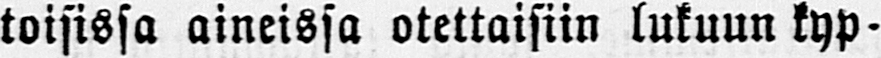toisissa aineissa otettaisiin lukuun kyp-
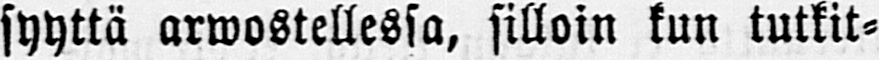syyttä arwostellessa, silloin kun tutkit-
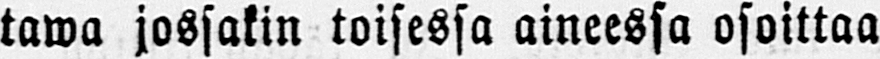tawa jossakin toisessa aineessa osoittaa
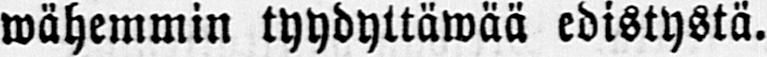wähemmin tyydyttäwää edistystä.
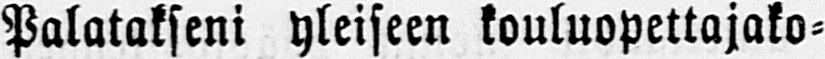Palatakseni yleiseen kouluopettajako-
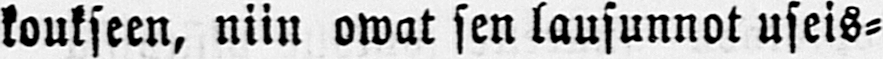koukseen, niin owat sen lausunnot useis-
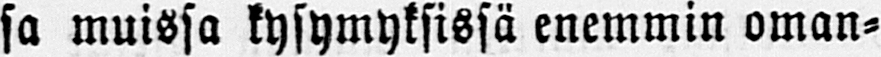sa muissa kysymyksissä enemmin oman-
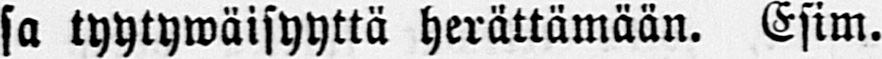sa tyytywäisyyttä herättämään. Esim.
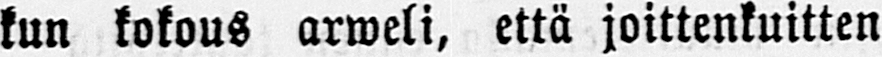kun kokous arweli, että joittenkuitten
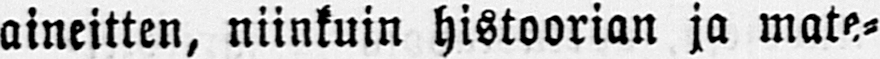aineitten, niinkuin histoorian ja mate-
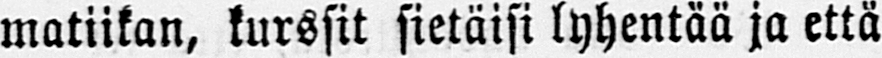matiikan, kurssit sietäisi lyhentää ja että
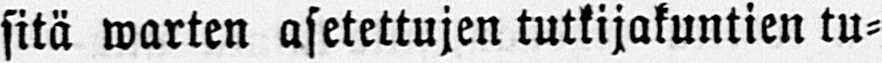sitä warten asetettujen tutkijakuntien tu-
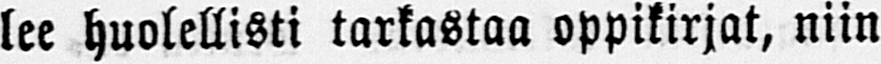lee huolellisti tarkastaa oppikirjat, niin
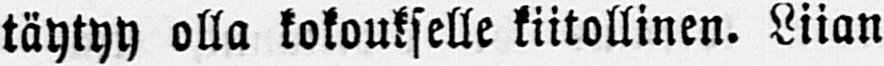täytyy olla kokoukselle kiitollinen. Liian
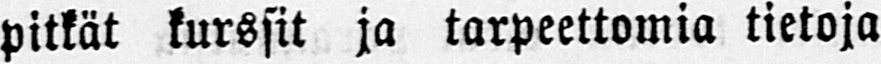pitkät kurssit ja tarpeettomia tietoja
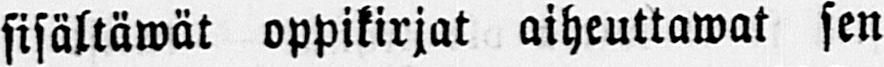sisältäwät oppikirjat aiheuttawat sen
